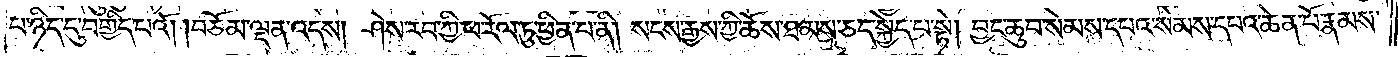པ་ཉིད་དུ་བགྱིད་པའོ། །བཅོམ་ལྡན་འདས། ཤེས་རབ་ཀྱི་ཕ་རོལ་ཏུ་ཕྱིན་པ་ནི། སངས་རྒྱས་ཀྱི་ཆོས་ཐམས་ཅད་སྐྱེད་པ་སྟེ། བྱང་ཆུབ་སེམས་དཔའ་སེམས་དཔའ་ཆེན་པོ་རྣམས་
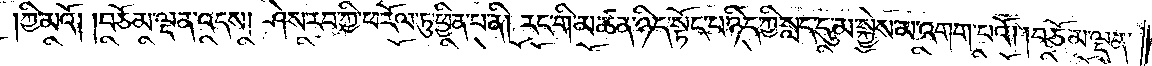ཀྱི་མའོ། །བཅོམ་ལྡན་འདས། ཤེས་རབ་ཀྱི་ཕ་རོལ་ཏུ་ཕྱིན་པ་ནི། རང་གི་མཚན་ཉིད་སྟོང་པ་ཉིད་ཀྱི་སླད་དུ་མ་སྐྱེས་མ་འགག་པའོ། །བཅོམ་ལྡན་
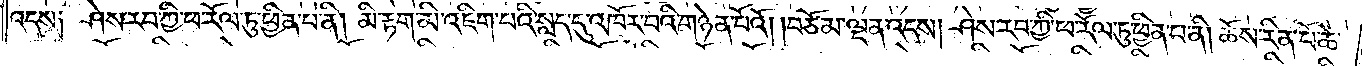འདས༑ ཤེས་རབ་ཀྱི་ཕ་རོལ་ཏུ་ཕྱིན་པ་ནི། མི་རྟག་མི་འཇིག་པའི་སླད་དུ་འཁོར་བའི་གཉན་པོའོ། །བཅོམ་ལྡན་འདས། ཤེས་རབ་ཀྱི་ཕ་རོལ་ཏུ་ཕྱིན་པ་ནི། ཆོས་རིན་པོ་ཆེ་
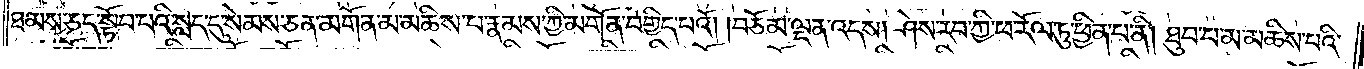ཐམས་ཅད་སྟོབ་པའི་སླད་དུ་སེམས་ཅན་མགོན་མ་མཆིས་པ་རྣམས་ཀྱི་མགོན་བགྱིད་པའོ། །བཅོམ་ལྡན་འདས། ཤེས་རབ་ཀྱི་ཕ་རོལ་ཏུ་ཕྱིན་པ་ནི། ཐུབ་པ་མ་མཆིས་པའི་
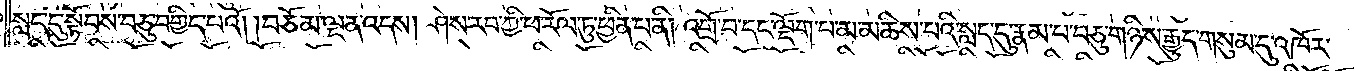སླད་དུ་སྟོབས་བཅུ་བགྱིད་པའོ། །བཅོམ་ལྡན་འདས། ཤེས་རབ་ཀྱི་ཕ་རོལ་ཏུ་ཕྱིན་པ་ནི། འགྲོ་བ་དང་ལྡོག་པ་མ་མཆིས་པའི་སླད་དུ་རྣམ་པ་བཅུ་གཉིས་རྒྱུད་གསུམ་དུ་འཁོར་
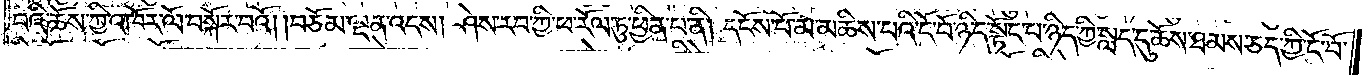བའི་ཆོས་ཀྱི་འཁོར་ལོ་བསྐོར་བའོ། །བཅོམ་ལྡན་འདས། ཤེས་རབ་ཀྱི་ཕ་རོལ་ཏུ་ཕྱིན་པ་ནི། དངོས་པོ་མ་མཆིས་པའི་ངོ་བོ་ཉིད་སྟོང་པ་ཉིད་ཀྱི་སླད་དུ་ཆོས་ཐམས་ཅད་ཀྱི་ངོ་བོ་
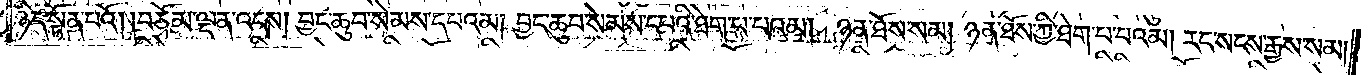ཉིད་སྟོན་པའོ། །བཅོམ་ལྡན་འདས། བྱང་ཆུབ་སེམས་དཔའམ། བྱང་ཆུབ་སེམས་དཔའི་ཐེག་པ་པའམ། ཉན་ཐོས་སམ། ཉན་ཐོས་ཀྱི་ཐེག་པ་པའམ། རང་སངས་རྒྱས་སམ།
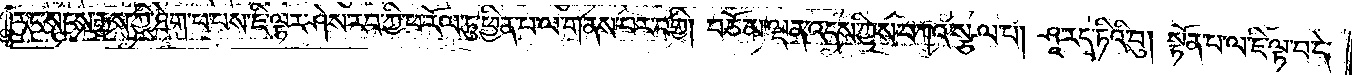རང་སངས་རྒྱས་ཀྱི་ཐེག་པ་པས་ཇི་ལྟར་ཤེས་རབ་ཀྱི་ཕ་རོལ་ཏུ་ཕྱིན་པ་ལ་གནས་པར་བགྱི། བཅོམ་ལྡན་འདས་ཀྱིས་བཀའ་སྩལ་པ། ཤཱ་ར་དྭ་ཏིའི་བུ། སྟོན་པ་ལ་ཇི་ལྟ་བ་དེ་
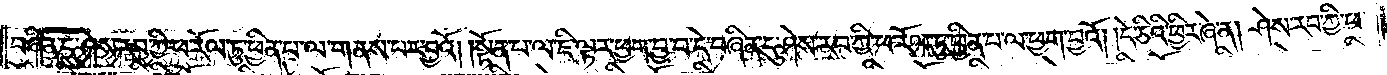བཞིན་དུ་ཤེས་རབ་ཀྱི་ཕ་རོལ་ཏུ་ཕྱིན་པ་ལ་གནས་པར་བྱའོ། །སྟོན་པ་ལ་ཇི་ལྟར་ཕྱག་བྱ་བ་དེ་བཞིན་དུ་ཤེས་རབ་ཀྱི་ཕ་རོལ་ཏུ་ཕྱིན་པ་ལ་ཕྱག་བྱའོ། །དེ་ཅིའི་ཕྱིར་ཞེ་ན། ཤེས་རབ་ཀྱི་ཕ་
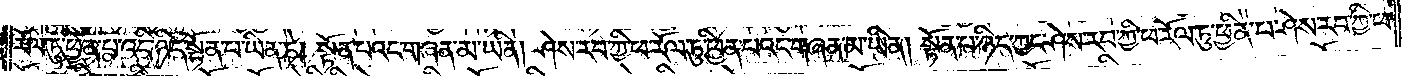རོལ་ཏུ་ཕྱིན་པ་འདི་ཉིད་སྟོན་པ་ཡིན་ཏེ། སྟོན་པའང་གཞན་མ་ཡིན། ཤེས་རབ་ཀྱི་ཕ་རོལ་ཏུ་ཕྱིན་པའང་གཞན་མ་ཡིན། སྟོན་པ་ཉིད་ཀྱང་ཤེས་རབ་ཀྱི་ཕ་རོལ་ཏུ་ཕྱིན་པ་ཤེས་རབ་ཀྱི་ཕ་
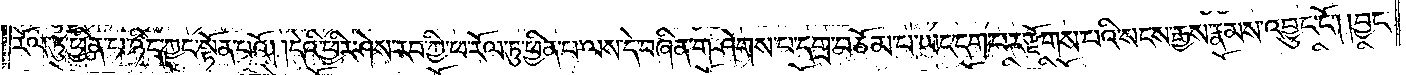རོལ་ཏུ་ཕྱིན་པ་ཉིད་ཀྱང་སྟོན་པའོ། །དེའི་ཕྱིར་ཤེས་རབ་ཀྱི་ཕ་རོལ་ཏུ་ཕྱིན་པ་ལས་དེ་བཞིན་གཤེགས་པ་དགྲ་བཅོམ་པ་ཡང་དག་པར་རྫོགས་པའི་སངས་རྒྱས་རྣམས་འབྱུང་ངོ༌། །བྱང་
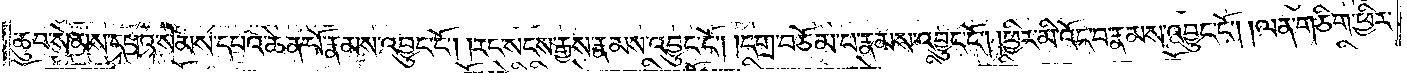ཆུབ་སེམས་དཔའ་སེམས་དཔའ་ཆེན་པོ་རྣམས་འབྱུང་ངོ༌། །རང་སངས་རྒྱས་རྣམས་འབྱུང་ངོ༌། །དགྲ་བཅོམ་པ་རྣམས་འབྱུང་ངོ༌། །ཕྱིར་མི་འོང་བ་རྣམས་འབྱུང་ངོ༌། །ལན་གཅིག་ཕྱིར་
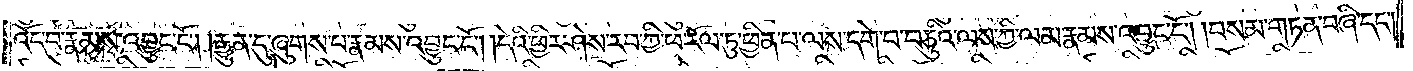འོང་བ་རྣམས་འབྱུང་ངོ༌། །རྒྱུན་དུ་ཞུགས་པ་རྣམས་འབྱུང་ངོ༌། །དེའི་ཕྱིར་ཤེས་རབ་ཀྱི་ཕ་རོལ་ཏུ་ཕྱིན་པ་ལས་དགེ་བ་བཅུའི་ལས་ཀྱི་ལམ་རྣམས་འབྱུང་ངོ༌། །བསམ་གཏན་བཞི་དང༌།
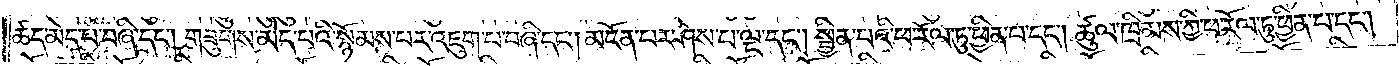ཚད་མེད་པ་བཞི་དང༌། གཟུགས་མེད་པའི་སྙོམས་པར་འཇུག་པ་བཞི་དང༌། མངོན་པར་ཤེས་པ་ལྔ་དང༌། སྦྱིན་པའི་ཕ་རོལ་ཏུ་ཕྱིན་པ་དང༌། ཚུལ་ཁྲིམས་ཀྱི་ཕ་རོལ་ཏུ་ཕྱིན་པ་དང༌།
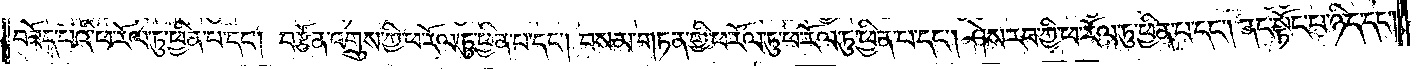བཟོད་པའི་ཕ་རོལ་ཏུ་ཕྱིན་པ་དང༌། བརྩོན་འགྲུས་ཀྱི་ཕ་རོལ་ཏུ་ཕྱིན་པ་དང༌། བསམ་གཏན་གྱི་ཕ་རོལ་ཏུ་ཕྱིན་པ་དང༌། ཤེས་རབ་ཀྱི་ཕ་རོལ་ཏུ་ཕྱིན་པ་དང༌། ནང་སྟོང་པ་ཉིད་དང༌།
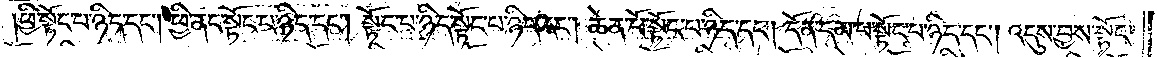ཕྱི་སྟོང་པ་ཉིད་དང༌། ཕྱི་ནང་སྟོང་པ་ཉིད་དང༌། སྟོང་པ་ཉིད་སྟོང་པ་ཉིད་དང༌། ཆེན་པོ་སྟོང་པ་ཉིད་དང༌། དོན་དམ་པ་སྟོང་པ་ཉིད་དང༌། འདུས་བྱས་སྟོང་
